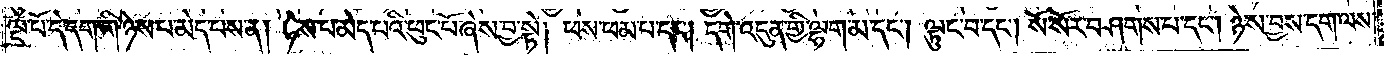ལྔ་པོ་དེ་དག་གི་ཉེས་པ་མེད་པས་ན། ཉེས་པ་མེད་པའི་ཕུང་པོ་ཞེས་བྱ་སྟེ། ཕས་ཕམ་པ་དང༌། དགེ་འདུན་གྱི་ལྷག་མ་དང༌། ལྟུང་བ་དང༌། སོ་སོར་བཤགས་པ་དང༌། ཉེས་བྱས་དག་ལས་
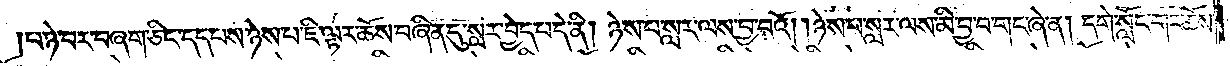པ་ཉེ་བར་བཞག་ཅིང་དད་པས་ཉེས་པ་ཇི་ལྟར་ཆོས་བཞིན་དུ་སླར་བྱེད་པ་དེ་ནི། ཉེས་པ་སླར་ལས་བྱ་བའོ། །ཉེས་པ་སླར་ལས་མི་བྱ་བ་གང་ཞེ་ན། དགེ་སློང་གང་ཆོས་
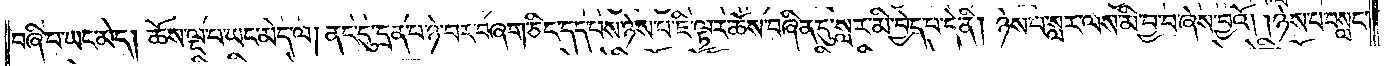བཞི་པ་ཡང་མེད། ཆོས་ལྔ་པ་ཡང་མེད་ལ། ནང་དུ་དྲན་པ་ཉེ་བར་བཞག་ཅིང་དད་པས་ཉེས་པ་ཇི་ལྟར་ཆོས་བཞིན་དུ་སླར་མི་བྱེད་པ་དེ་ནི། ཉེས་པ་སླར་ལས་མི་བྱ་བ་ཞེས་བྱའོ། །ཉེས་པ་བསླང་
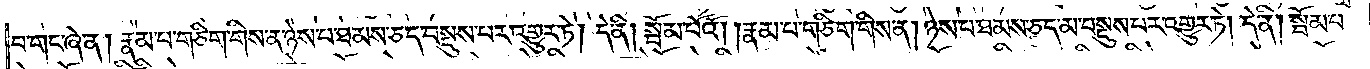བ་གང་ཞེ་ན། རྣམ་པ་གཅིག་གིས་ན་ཉེས་པ་ཐམས་ཅད་བསྡུས་པར་འགྱུར་ཏེ། དེ་ནི། སྦོམ་པོའོ། །རྣམ་པ་གཅིག་གིས་ན། ཉེས་པ་ཐམས་ཅད་མ་བསྡུས་པར་འགྱུར་ཏེ། དེ་ནི། སྦོམ་པ་
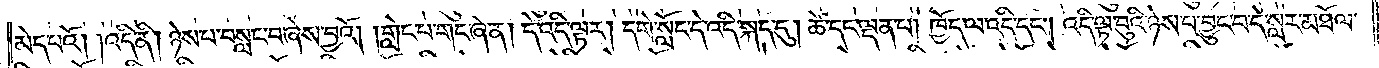མེད་པའོ། །འདི་ནི། ཉེས་པ་བསླང་བ་ཞེས་བྱའོ། །གླེང་པ་གང་ཞེ་ན། དེ་འདི་ལྟར། དགེ་སློང་དེ་འདི་སྐད་དུ། ཚེ་དང་ལྡན་པ། ཁྱོད་ལ་འདི་དང༌། འདི་ལྟ་བུའི་ཉེས་པ་བྱུང་བ་དེ་སླར་མཐོལ་
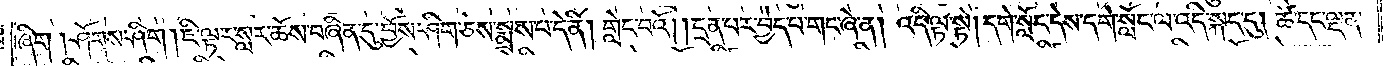ཞིག །ཤོགས་ཤིག །ཇི་ལྟར་སླར་ཆོས་བཞིན་དུ་བྱོས་ཤིག་ཅེས་སྨྲས་པ་དེ་ནི། གླེང་བའོ། །དྲན་པར་བྱེད་པ་གང་ཞེ་ན། འདི་ལྟ་སྟེ། དགེ་སློང་དེས་དགེ་སློང་ལ་འདི་སྐད་དུ། ཚེ་དང་ལྡན་
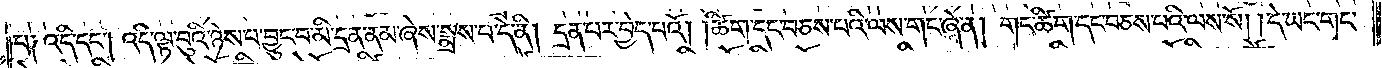པ༑ འདི་དང༌། འདི་ལྟ་བུའི་ཉེས་པ་བྱུང་བ་མི་དྲན་ནམ་ཞེས་སྨྲས་པ་དེ་ནི། དྲན་པར་བྱེད་པའོ། །ཚིག་དང་བཅས་པའི་ལས་གང་ཞེ་ན། གང་ཚིག་དང་བཅས་པའི་ལས་སོ། །དེ་ཡང་གང་
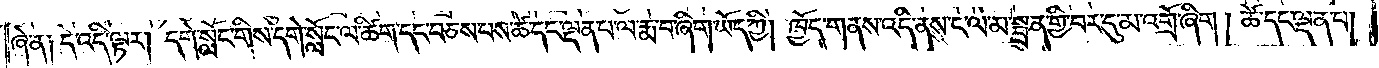ཞེ་ན༑ དེ་འདི་ལྟར། དགེ་སློང་གིས་དགེ་སློང་ལ་ཚིག་དང་བཅས་པས་ཚེ་དང་ལྡན་པ་ལ་རྨ་བ་ཞིག་ཡོད་ཀྱི། ཁྱོད་གནས་འདི་ནས་ང་ལ་མ་སྦྲན་གྱི་བར་དུ་མ་འགྲོ་ཞིག །ཚེ་དང་ལྡན་པ།
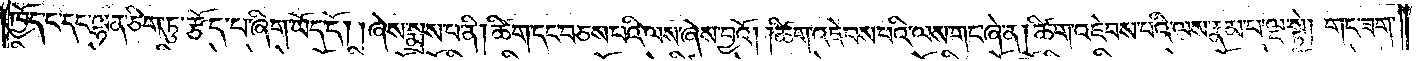ཁྱོད་ང་དང་ལྷན་ཅིག་ཏུ་རྩོད་པ་ཞིག་ཡོད་དོ། །ཞེས་སྨྲས་པ་ནི། ཚིག་དང་བཅས་པའི་ལས་ཞེས་བྱའོ། །ཚིག་འཇེབས་པའི་ལས་གང་ཞེ་ན། ཚིག་འཇེབས་པའི་ལས་རྣམ་པ་ལྔ་སྟེ། གང་ཟག་
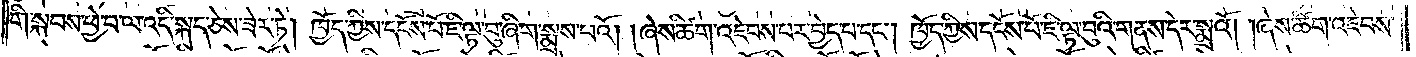གི་སྐབས་ཕྱེ་བ་ལ་འདི་སྐད་ཅེས་ཟེར་ཏེ། ཁྱོད་ཀྱིས་དངོས་པོ་ཇི་ལྟ་བུ་ཞིག་སྨྲས་པའོ། །ཞེས་ཚིག་འཇེབས་པར་བྱེད་པ་དང༌། ཁྱོད་ཀྱིས་དངོས་པོ་ཇི་ལྟ་བུའི་གནས་དེར་སྨྲའོ། །ཞེས་ཚིག་འཇེབས་
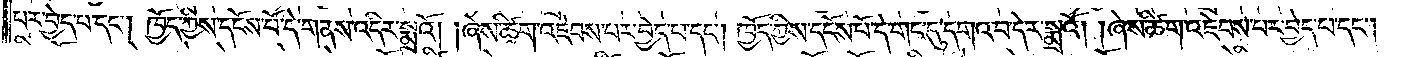པར་བྱེད་པ་དང༌། ཁྱོད་ཀྱིས་དངོས་པོ་དེ་གནས་པོ་འདིར་སྨྲའོ། །ཞེས་ཚིག་འཇེབས་པར་བྱེད་པ་དང༌། ཁྱོད་ཀྱིས་དངོས་པོ་དེ་གང་དུ་དགའ་བ་དེར་སྨྲའོ། །ཞེས་ཚིག་འཇེབས་པར་བྱེད་པ་དང༌།
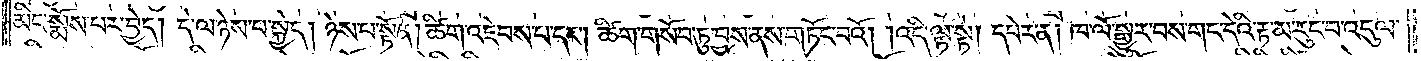མིང་སྨོས་པར་བྱེད། དེ་ལ་ཉེས་པ་སྐྱེད། ཉེས་པ་སྟོན། ཚིག་འཇེབས་པ་དང༌། ཚིག་གསོབ་ཏུ་བྱས་ནས་གཏོང་བའོ། །འདི་ལྟ་སྟེ། དཔེར་ན། ཁ་ལོ་སྒྱུར་བས་གང་དེའི་རྟ་མ་རུང་བ་འདུལ་
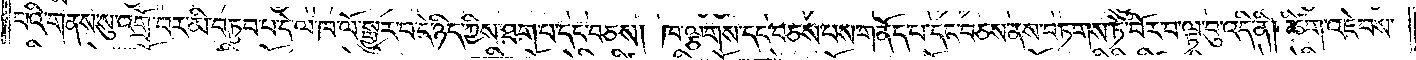བའི་གནས་སུ་འགྲོ་བར་མི་བཏུབ་པ་དེ་ལ་ཁ་ལོ་སྒྱུར་བ་དེ་ཉིད་ཀྱིས་ཐག་པ་དང་བཅས། ཁ་ལྕགས་དང་བཅས་པས་གནོད་པ་དང་བཅས་ནས་བཏགས་ཏེ་བོར་བ་ལྟ་བུ་འདི་ནི། ཚིག་འཇེབས་
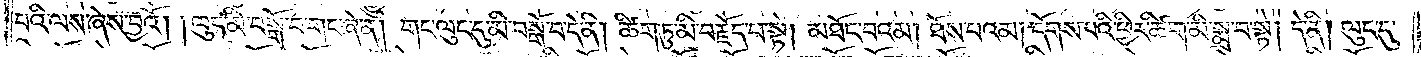པའི་ལས་ཞེས་བྱའོ། །ལུང་མི་བསྒོ་བ་གང་ཞེ་ན། གང་ལུང་དུ་མི་བསྒོ་བ་དེ་ནི། ཚིག་ཏུ་མི་བརྗོད་པ་སྟེ། མཐོང་བའམ། ཐོས་པའམ། དོགས་པའི་ཕྱིར་ཚིག་མི་སྨྲ་བ་སྟེ། དེ་ནི། ལུང་དུ་
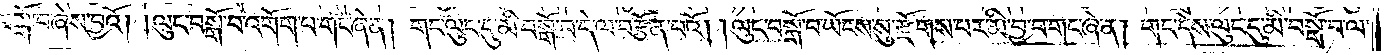མི་བསྒོ་བ་ཞེས་བྱའོ། །ལུང་བསྒོ་བ་འགོག་པ་གང་ཞེ་ན། གང་ལུང་དུ་མི་བསྒོ་བ་དེ་ལ་བརྩོན་པའོ། །ལུང་བསྒོ་བ་ཡོངས་སུ་རྫོགས་པར་མི་བྱ་བ་གང་ཞེ་ན། གང་དེས་ལུང་དུ་མི་བསྒོ་བ་ལ་
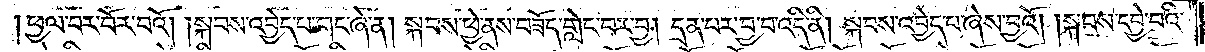ཕྱལ་བར་བོར་བའོ། །སྐབས་འབྱེད་པ་གང་ཞེ་ན། སྐབས་ཕྱེ་ནས་བཟོད་གླེང་བར་བྱ། དྲན་པར་བྱ་བ་འདི་ནི། སྐབས་འབྱེད་པ་ཞེས་བྱའོ། །སྐབས་དབྱེ་བའི་
